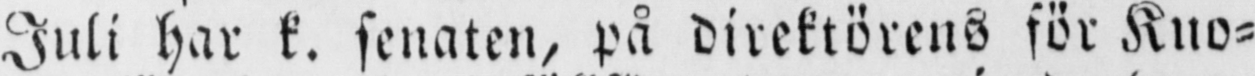Juli har k. senaten, på direktörens för Kuo-
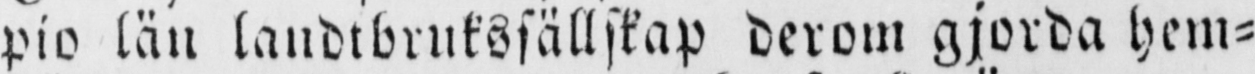pio län landtbrukssällskap derom gjorda hem-
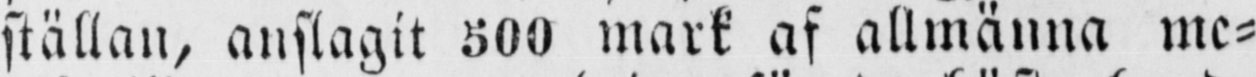ställan, anslagit 500 mark af allmänna me-
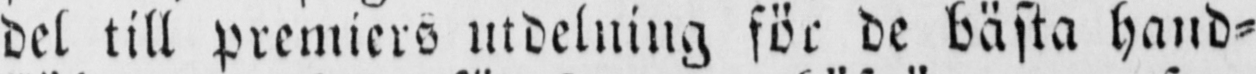del till premiers utdelning för de bästa hand-
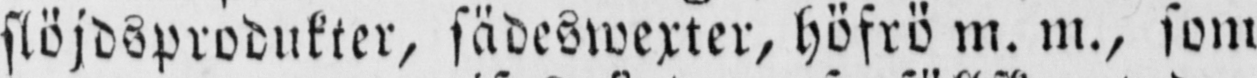slöjdsprodukter, sädeswexter, höfrö m. m., som
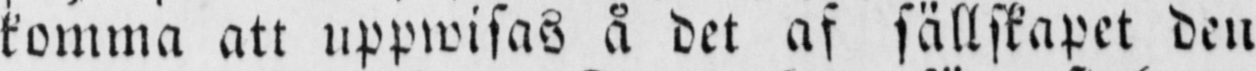komma att uppwisas å det af sällskapet den
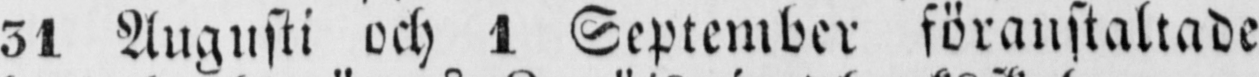31 Augusti och 1 September föranstaltade
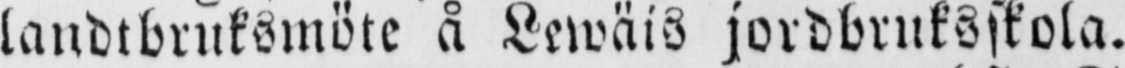landtbruksmöte å Lewäis jordbruksskola.
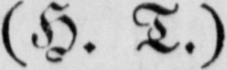(H. T.)
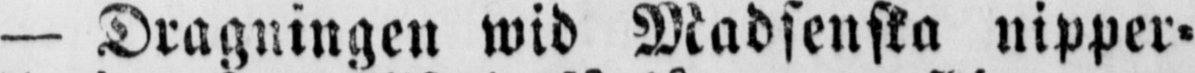— Dragningen wid Madsenska nipper-
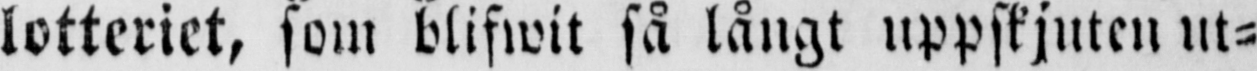lotteriet, som blifwit så långt uppskjuten ut-
